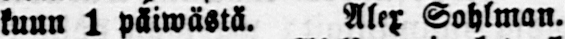kuun 1 päiwästä. Alex Sohlman.
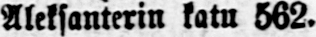Aleksanterin katu 562.
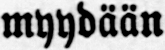myydään
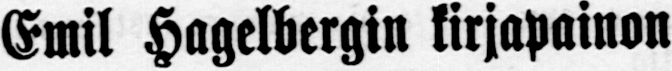Emil Hagelbergin kirjapainon
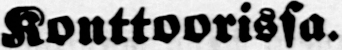Konttoorissa.
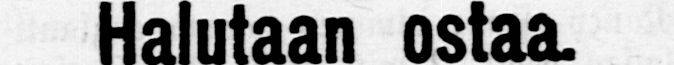Halutaan ostaa.
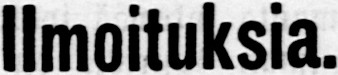Ilmoituksia.
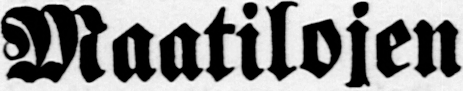Maatilojen
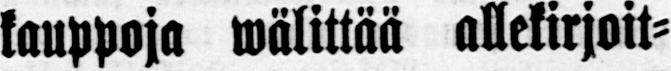kauppoja wälittää allekirjoit-
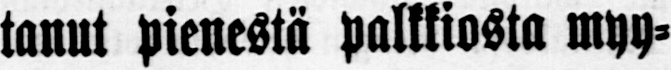tanut pienestä palkkiosta myy-
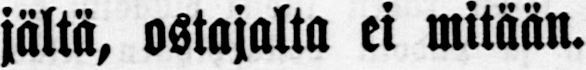jältä, ostajalla ei mitään.
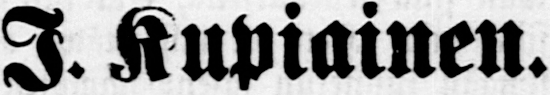I. Kupiainen.
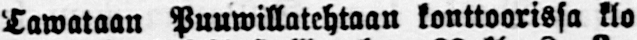Tawataan Puuwillatehtaan konttoorissa klo
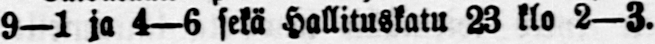9 —1 ja 4—6 sekä Hallituskatu 23 klo 2—3.
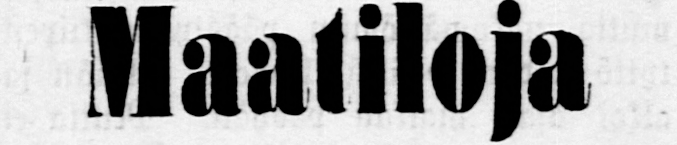Maatiloja
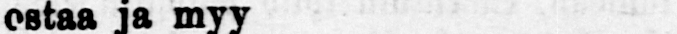ostaa ja myy
